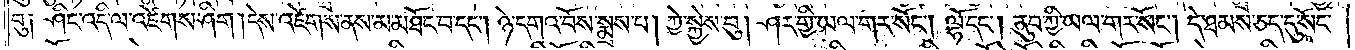བུ། ཤིང་འདི་ལ་འཛེགས་ཤིག །དེས་འཛེགས་ནས་མ་མཐོང་བ་དང༌། ཉེ་དགའ་བོས་སྨྲས་པ། ཀྱེ་སྐྱེས་བུ། ཤར་གྱི་ཡལ་གར་སོང༌། ལྷོ་དང༌། ནུབ་ཀྱི་ཡལ་གར་སོང༌། དེ་ཐམས་ཅད་དུ་སོང་
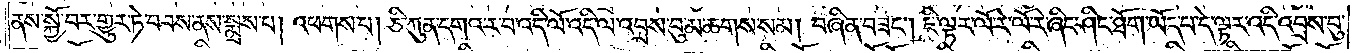ནས་སྐྱོ་བར་གྱུར་ཏེ་བབས་ནས་སྨྲས་པ། འཕགས་པ། ཅི་ཀུན་དགའ་ར་བ་འདི་ལོ་འདི་ལ་འབྲས་བུ་མ་ཆགས་སམ། བཞིན་བཟང༌། ཇི་ལྟར་ལོ་རེ་ལོ་རེ་ཞིང་ཤིང་ཐོག་ཡོད་པ་དེ་ལྟར་འདི་འབྲས་བུ་
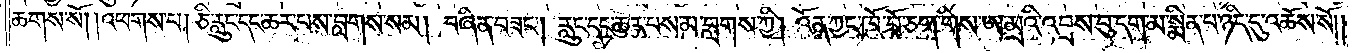ཆགས་སོ། །འཕགས་པ། ཅི་རླུང་དང་ཆར་པས་བླགས་སམ། བཞིན་བཟང༌། རླུང་དང་ཆར་པས་མ་བླགས་ཀྱི། འོན་ཀྱང་ཁོ་བོ་ཅག་གིས་ཨ་མྲའི་འབྲས་བུ་དག་མ་སྨིན་པ་ཉིད་དུ་འཆོས་སོ། །
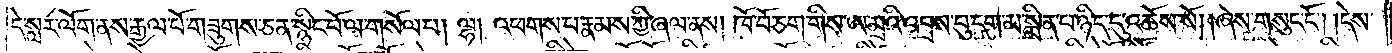དེ་སླར་ལོག་ནས་རྒྱལ་པོ་གཟུགས་ཅན་སྙིང་པོ་ལ་གསོལ་པ། ལྷ། འཕགས་པ་རྣམས་ཀྱི་ཞལ་ནས། ཁོ་བོ་ཅག་གིས་ཨ་མྲའི་འབྲས་བུ་དག་མ་སྨིན་པ་ཉིད་དུ་འཆོས་སོ། །ཞེས་གསུང་ངོ༌། །དེས་
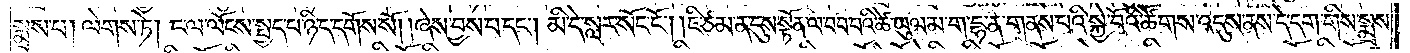སྨྲས་པ། ལེགས་ཏེ། ང་ལ་ལོངས་སྤྱད་པ་ཉིད་དགོས་སོ། །ཞེས་བྱས་པ་དང༌། མི་དེ་སླར་སོང་ངོ༌། །ཇི་ཙམ་ན་དུས་སྟོན་ལ་བབ་པའི་ཚེ་ཡུལ་མ་ག་དྷ་ན་གནས་པའི་སྐྱེ་བོའི་ཚོགས་འདུས་ནས་དེ་དག་གིས་སྨྲས་
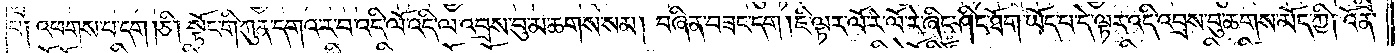པ། འཕགས་པ་དག །ཅི། སྟོང་གི་ཀུན་དགའ་ར་བ་འདི་ལོ་འདི་ལ་འབྲས་བུ་མ་ཆགས་སམ། བཞིན་བཟང་དག །ཇི་ལྟར་ལོ་རེ་ལོ་རེ་ཞིང་ཤིང་ཐོག་ཡོད་པ་དེ་ལྟར་འདི་འབྲས་བུ་ཆགས་མོད་ཀྱི། འོན་
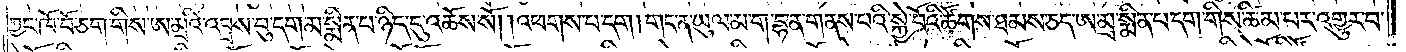ཀྱང་ཁོ་བོ་ཅག་གིས་ཨ་མྲའི་འབྲས་བུ་དག་མ་སྨིན་པ་ཉིད་དུ་འཆོས་སོ། །འཕགས་པ་དག །གང་ན་ཡུལ་མ་ག་དྷ་ན་གནས་པའི་སྐྱེ་བོའི་ཚོགས་ཐམས་ཅད་ཨ་མྲ་སྨིན་པ་དག་གིས་ཚིམ་པར་འགྱུར་བ་
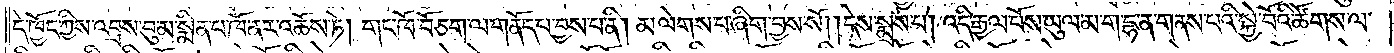དེ་ཁྱོད་ཀྱིས་འབྲས་བུ་མ་སྨིན་པ་ཁོ་ནར་འཆོས་ཏེ། གང་ཁོ་བོ་ཅག་ལ་གནོད་པ་བྱས་པ་ནི། མ་ལེགས་པ་ཞིག་བྱས་སོ། །དེས་སྨྲས་པ། འདི་རྒྱལ་པོས་ཡུལ་མ་ག་དྷ་ན་གནས་པའི་སྐྱེ་བོའི་ཚོགས་ལ་
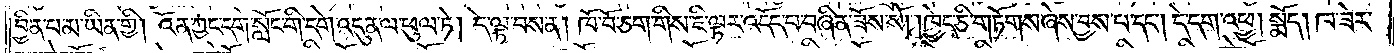བྱིན་པ་མ་ཡིན་གྱི། འོན་ཀྱང་དགེ་སློང་གི་དགེ་འདུན་ལ་ཕུལ་ཏེ། དེ་ལྟ་བས་ན། ཁོ་བོ་ཅག་གིས་ཇི་ལྟར་འདོད་པ་བཞིན་ཟོས་སོ། །ཁྱེད་ཅི་གཏོགས་ཞེས་བྱས་པ་དང༌། དེ་དག་འཕྱ། སྨོད། ཁ་ཟེར་
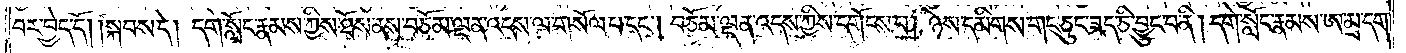པར་བྱེད་དོ། །སྐབས་དེ། དགེ་སློང་རྣམས་ཀྱིས་ཐོས་ནས་བཅོམ་ལྡན་འདས་ལ་གསོལ་པ་དང༌། བཅོམ་ལྡན་འདས་ཀྱིས་དགོངས་པ། ཉེས་དམིགས་གང་ཅུང་ཟད་ཅི་བྱུང་བ་ནི། དགེ་སློང་རྣམས་ཨ་མྲ་དག་
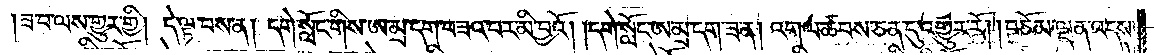ཟ་བ་ལས་གྱུར་གྱི། དེ་ལྟ་བས་ན། དགེ་སློང་གིས་ཨ་མྲ་དག་བཟའ་བར་མི་བྱའོ། །དགེ་སློང་ཨ་མྲ་དག་ཟ་ན། འགལ་ཚབས་ཅན་དུ་འགྱུར་རོ། །བཅོམ་ལྡན་འདས་
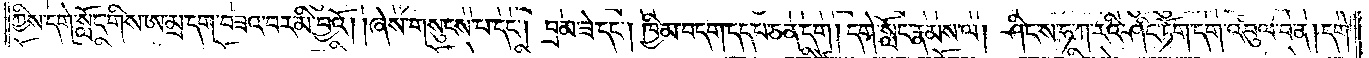ཀྱིས་དགེ་སློང་གིས་ཨ་མྲ་དག་བཟའ་བར་མི་བྱའོ། །ཞེས་གསུངས་པ་དང༌། བྲམ་ཟེ་དང༌། ཁྱིམ་བདག་དད་པ་ཅན་དག །དགེ་སློང་རྣམས་ལ། ཤིང་ས་ཧ་ཀ་རའི་ཤིང་ཏོག་དག་འབུལ་བ་ན། དགེ་
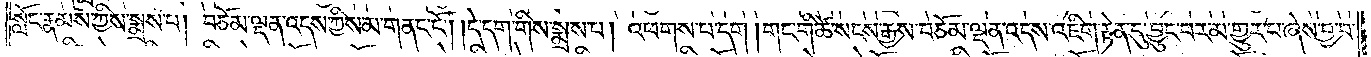སློང་རྣམས་ཀྱིས་སྨྲས་པ། བཅོམ་ལྡན་འདས་ཀྱིས་མ་གནང་ངོ༌། །དེ་དག་གིས་སྨྲས་པ། འཕགས་པ་དག །གང་གི་ཚེ་སངས་རྒྱས་བཅོམ་ལྡན་འདས་འཇིག་རྟེན་དུ་བྱུང་བར་མ་གྱུར་པ་ཞེས་བྱ་བ་
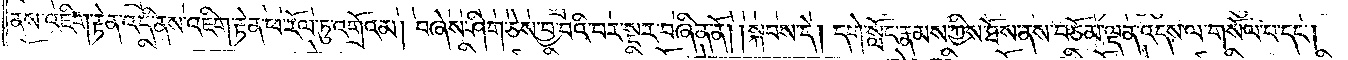ནས་འཇིག་རྟེན་འདི་ནས་འཇིག་རྟེན་ཕ་རོལ་ཏུ་འགྲོའམ། བཞེས་ཤིག་ཅེས་བྱ་བའི་བར་སྔར་བཞིན་ནོ། །སྐབས་དེ། དགེ་སློང་རྣམས་ཀྱིས་ཐོས་ནས་བཅོམ་ལྡན་འདས་ལ་གསོལ་པ་དང༌།
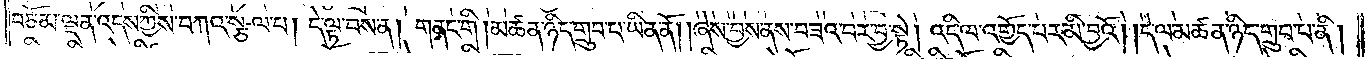བཅོམ་ལྡན་འདས་ཀྱིས་བཀའ་སྩལ་པ། དེ་ལྟ་བས་ན། གནང་གི །མཚན་ཉིད་གྲུབ་པ་ཡིན་ནོ། །ཞེས་བྱས་ནས་བཟའ་བར་བྱ་སྟེ། འདི་ལ་འགྱོད་པར་མི་བྱའོ། །དེ་ལ་མཚན་ཉིད་གྲུབ་པ་ནི།
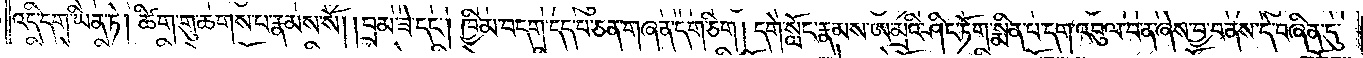འདི་དག་ཡིན་ཏེ། ཚིག་གུ་ཆགས་པ་རྣམས་སོ། །བྲམ་ཟེ་དང༌། ཁྱིམ་བདག་དད་པ་ཅན་གཞན་དག་ཅིག །དགེ་སློང་རྣམས་ཨ་མྲའི་ཤིང་ཏོག་སྨིན་པ་དག་འབུལ་བ་ན་ཞེས་བྱ་བ་ནས་དེ་བཞིན་དུ་
